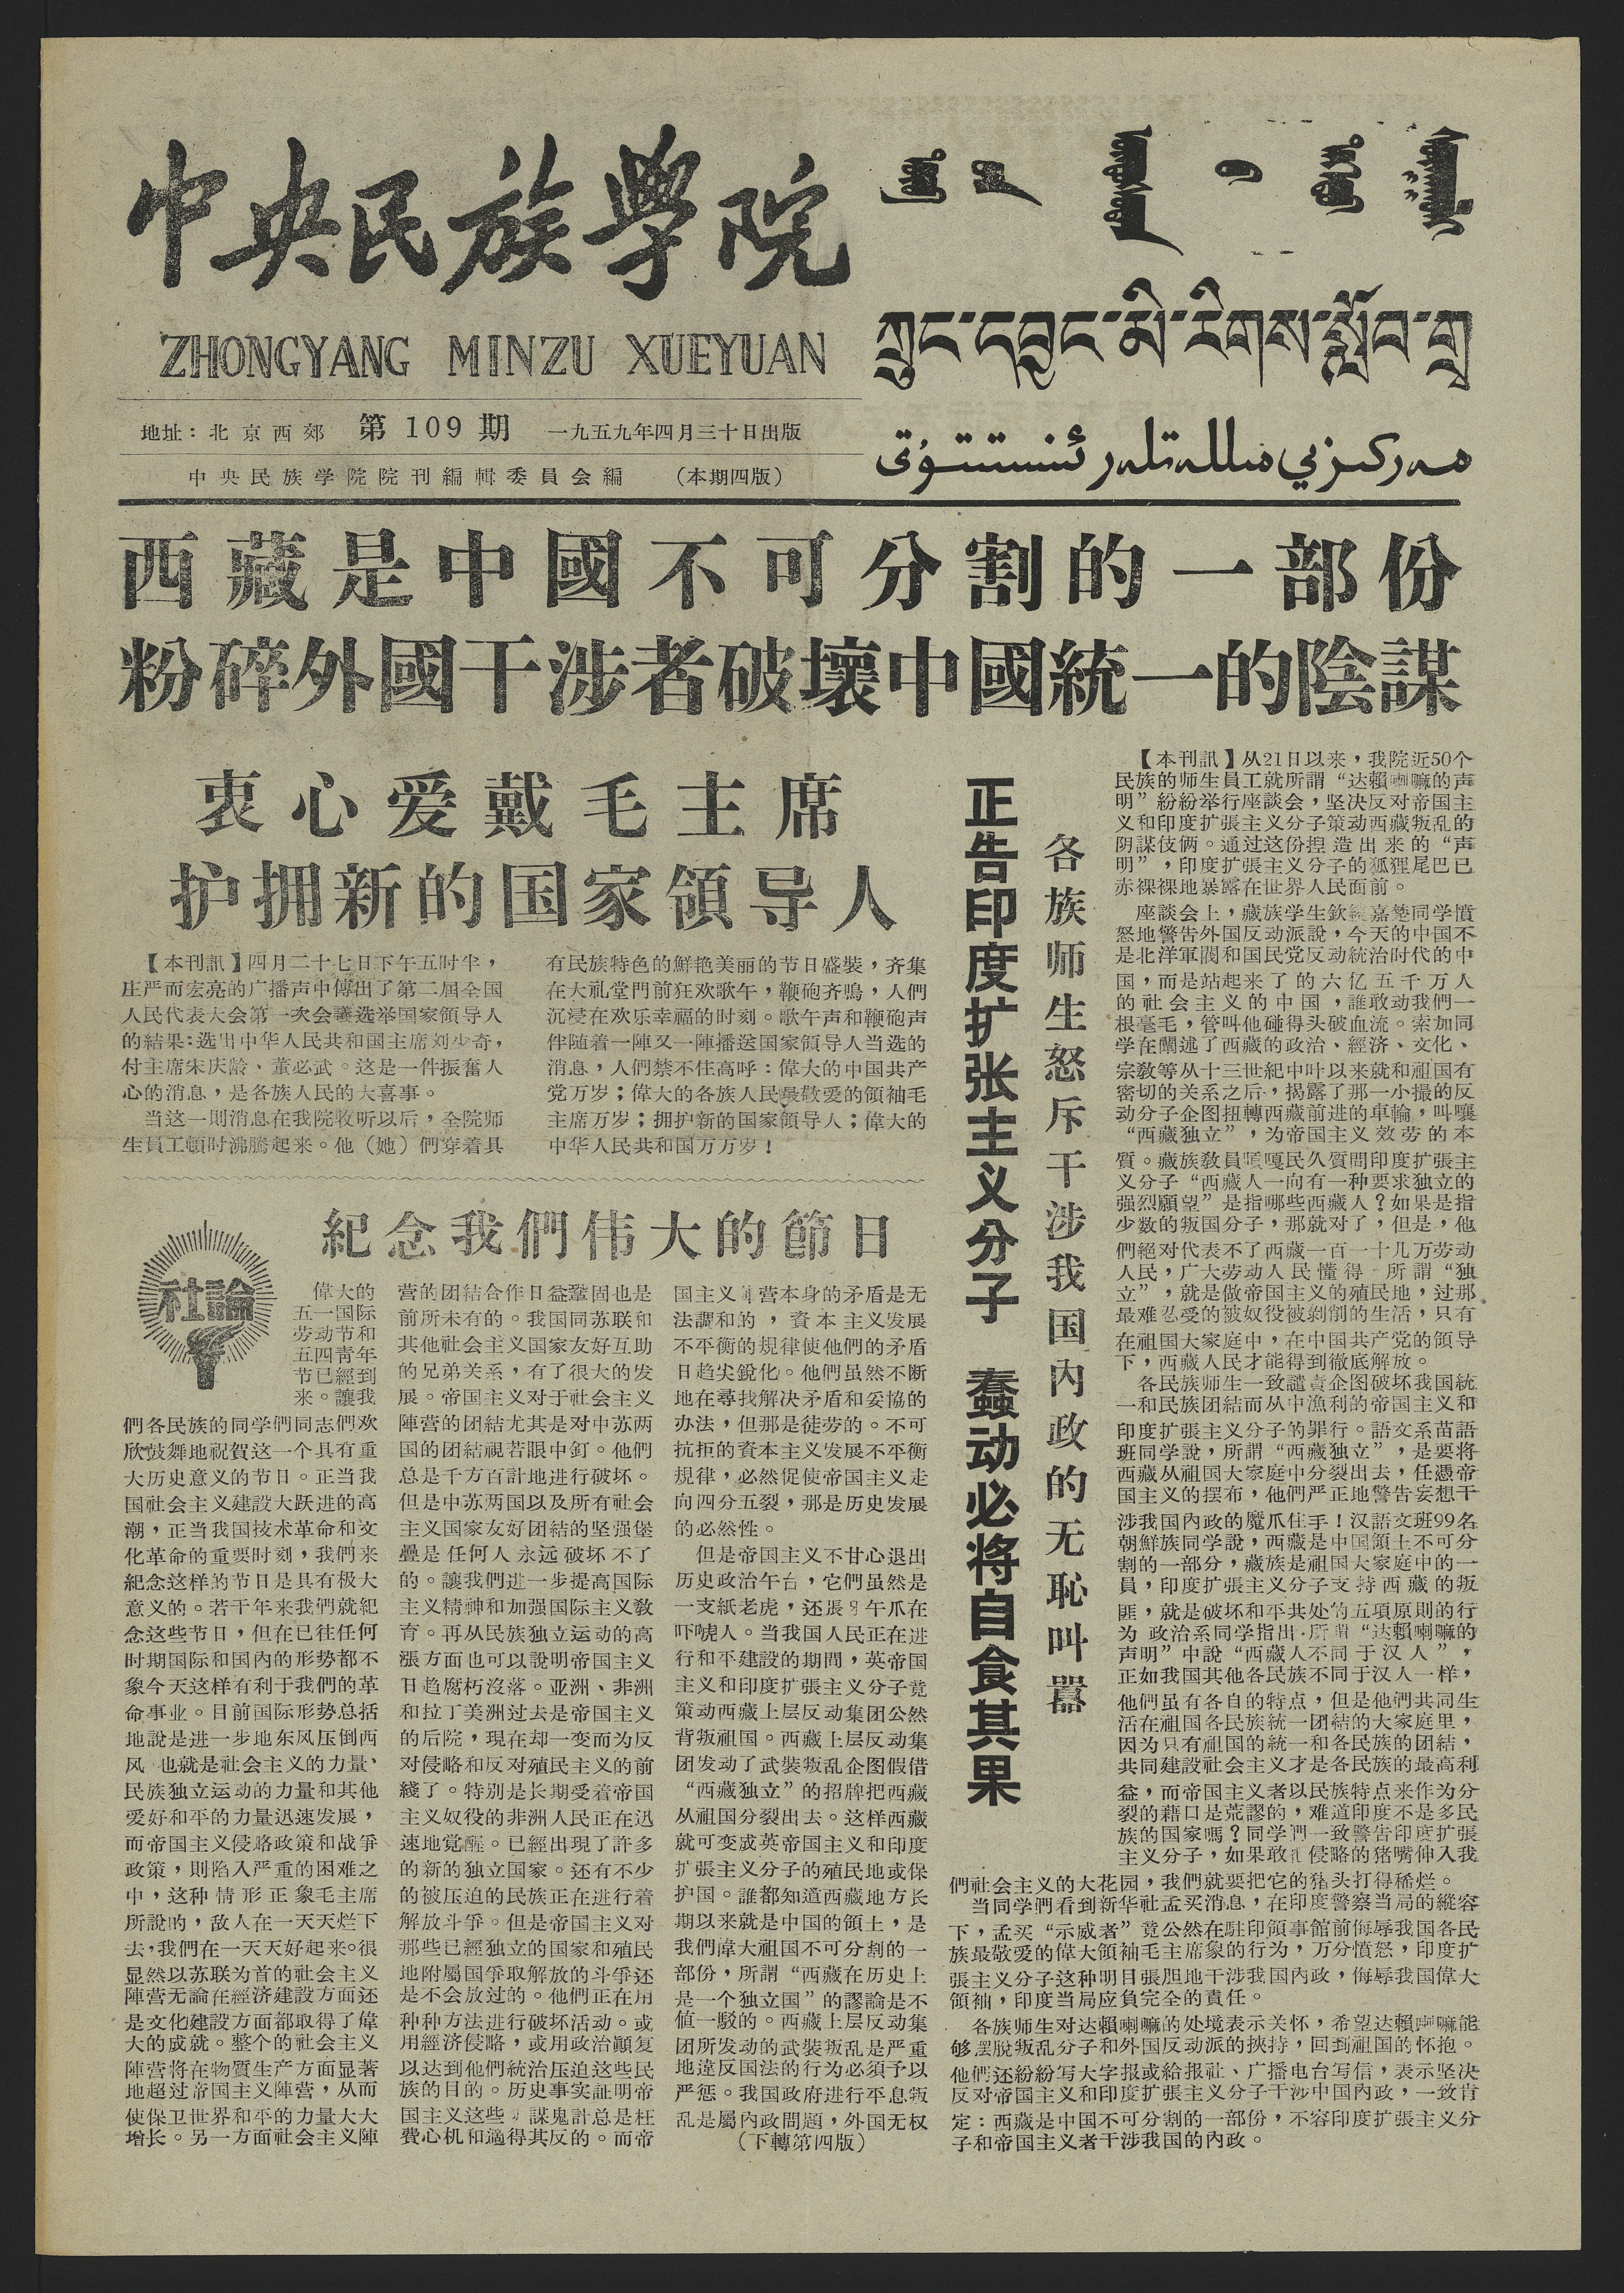中央民族學院
ZHONGYANG MINZU XUEYUAN
ᠲᠥᠪ ᠦᠨ ᠦᠨᠳᠦᠰᠦᠲᠡᠨ ᠦ ᠳᠡᠭᠡᠳᠦ ᠰᠤᠷᠭᠠᠭᠤᠯᠢ
ཀྲུང་དབྱང་མི་རིགས་སློབ་གྲྭ
مەركىزىي مىللەتلەر ئىنستىتۇتى
地址：北 京 西 郊 第 109 期 一九五九年四月三十日出版
中央民族学院院刊編輯委員會編 （本期四版）
西藏是中國不可分割的一部份
粉碎外國干涉者破壞中國統一的陰謀
衷心爱戴毛主席
护拥新的国家領导人
【本刊訊】四月二十七日下午五时半，
庄严而宏亮的广播声中傳出了第二屆全国
人民代表大会第一次会議选举国家領导人
的結果：选出中华人民共和国主席刘少奇，
付主席宋庆龄、董必武。这是一件振奮人
心的消息，是各族人民的大喜事。
当这一則消息在我院收听以后，全员师
生員工頓沸騰起来。他（她）們穿着具
有民族特色的鮮艳美丽的节日盛裝，齐集
在大礼堂門前狂欢歌午，鞭砲齐鳴，人們
沉浸在欢乐幸福的时刻。歌午声和鞭砲声
伴随着一陣又一陣播送国家領导人当选的
消息，人們禁不住高呼：偉大的中国共产
党万岁；偉大的各族人民最敬爱的領袖毛
主席万岁；拥护新的国家領导人；偉大的
中华人民共和国万万岁！
社論
紀念我們伟大的節日
偉大的
五一国际
劳动节和
五四靑年
节已經到
来。讓我
們各民族的同学們同志們欢
欣鼓舞地祝賀这一个具有重
大历史意义的节日。正当我
国社会主义建設大跃进的高
潮，正当我国技术革命和文
化革命的重要时刻，我們来
紀念这样的节日是具有极大
意义的。若干年来我們就紀
念这些节日，但在已往任何
时期国际和国内的形势都不
象今天这样有利于我們的革
命事业。目前国际形势总括
地說是进一步地东风压倒西
风，也就是社会主义的力量、
民族独立运动的力量和其他
爱好和平的力量迅速发展，
而帝国主义侵略政策和战爭
政策，則陷入严重的困难之
中，这种情形正象毛主席
所說的，敌人在一天天烂下
去，我們在一天天好起来。很
显然以苏联为首的社会主义
陣营无論在經济建設方面还
是文化建設方面都取得了偉
大的成就。整个的社会主义
陣营将在物質生产方面显著
地超过帝国主义陣营，从而
使保卫世界和平的力量大大
增长。另一方面社会主义陣
营的团結合作日益鞏固也是
前所未有的。我国同苏联和
其他社会主义国家友好互助
的兄弟关系，有了很大的发
展。帝国主义对于社会主义
陣营的团結尤其是对中苏两
国的团結視若眼中釘。他們
总是千方百計地进行破坏。
但是中苏两国以及所有社会
主义国家友好团結的坚强堡
疊是任何人永远破坏不了
的。讓我們进一步提高国际
主义精神和加强国际主义敎
育。再从民族独立运动的高
漲方面也可以說明帝国主义
日趋腐朽沒落。亚洲、非洲
和拉丁美洲过去是帝国主义
的后院，現在却一变而为反
对侵略和反对殖民主义的前
綫了。特别是长期受着帝国
主义奴役的非洲人民正在迅
速地覚醒。已經出現了許多
的新的独立国家。还有不少
的被压迫的民族正在进行着
解放斗爭。但是帝国主义对
那些已經独立的国家和殖民
地附屬国爭取解放的斗爭还
是不会放过的。他們正在用
种种方法进行破坏活动。或
用經济侵略，或用政治顚复
以达到他們統治压迫这些民
族的目的。历史事实証明帝
国主义这些阴謀鬼計总是枉
费心机和適得其反的。而帝
国主义陣营本身的矛盾是无
法調和的，資本主义发展
不平和的規律使他們的矛盾
日趋尖銳化。他們虽然不断
地在尋找解决矛盾和妥協的
办法，但那是徒劳地。不可
抗拒的資本主义发展不平衡
規律，必然促使帝国主义走
向四分五裂，那是历史发展
的必然性。
但是帝国主义不甘心退出
历史政治午台，它們虽然是
一支紙老虎，还張牙午爪在
吓唬人。当我国人民正在进
行和平建設的期間，英帝国
主义和印度扩張主义分子竟
策动西藏上层反动集团公然
被判祖国。西藏上层反动集
团发动了武装叛乱企图假借
“西藏独立”的招牌把西藏
从祖国分裂出去。这样西藏
就可变成英帝国主义和印度
扩張主义分子的殖民地或保
护国。誰都知道西藏地方长
期以来就是中国的領土，是
我們偉大祖国不可分割的一
部分，所謂“西藏在历史上
十一个独立国”的謬論是不
值一駁的。西藏上层反动集
团所发动的武装叛乱是严重
地違反国法的行为必須予以
严惩。我国政府进行平息叛
乱是屬內政問題，外国无权
（下轉第四版）
正告印度扩张主义分子 蠢动必将自食其果
各族师生怒斥干涉我国内政的无恥叫囂
【本刊訊】从21日以来，我院近50各
民族的师生員工就所謂“达賴喇嘛的声
明”紛紛举行座談会，坚决反对帝国主
义和印度扩張主义分子策动西藏叛乱的
阴謀伎俩。通过这份捏造出来的“声
明”，印度扩張主义分子的狐狸尾巴已
赤裸裸地暴露在世界人民面前。
座談会上，藏族学生欽繞嘉楚同学憤
怒地警告外国反动派說，今天的中国不
是北洋軍閥和国民党反动統治时代的中
国，而是站起来了的六亿五千万人
的社会主义的中国，誰敢动我們一
根毫毛，管叫他碰得头破血流。索加同
学在闡述了西藏的政治、經济、文化、
宗敎等从十三世紀中叶以来就和祖国有
密切的关系之后，揭露了那一小撮的反
动分子企图扭轉西藏前进的車輪，叫嚷
“西藏独立”，为帝国主义效劳的本
質。藏族敎員嗊嘎民久質問印度扩張主
义分子“西藏人一向有一种要求独立的
强烈願望”是指哪些西藏人？如果是指
少数的叛国分子，那就对了，但是，他
們絕对代表不了西藏一百一十几万劳动
人民，广大劳动人民懂得，所謂“独
立”，就是做帝国主义的殖民地，过那
最难忍受的被奴役被剝削的生活，只有
在祖国大家庭中，在中国共产党的領导
下，西藏人民才能得到徹底解放。
各民族师生一致譴責企图破坏我国統
一和民族团結而从中漁利的帝国主义和
印度扩張主义分子的罪行。語文系苗語
班同学說，所謂“西藏独立”，是要将
西藏从祖国大家庭中分裂出去，任憑帝
国主义的摆布，他們严正地警告妄想干
涉我国内政的魔爪住手！汉語文班99名
朝鮮族同学說，西藏是中国領土不可分
割的一部分，藏族是祖国大家庭中的一
員，印度扩張主义分子支持西藏的叛
匪，就是破坏和平共处的五項原則的行
为 政治系同学指出，所謂“达賴喇嘛的
声明”中說“西藏人不同于汉人”，
正如我国其他各民族不同于汉人一样，
他們虽有各自的特点，但是他們共同生
活在祖国各民族統一团結的大家庭里，
因为只有祖国的統一和各民族的团結，
共同建設社会主义才是各民族的最高利
益，而帝国主义者以民族特点来作为分
裂的藉口是荒謬的，难道印度不是多民
族的国家嗎？同学們一致警告印度扩張
主义分子，如果敢把侵略的猪嘴伸入我
們社会主义的大花园，我們就要把它的猪头打得稀烂。
当同学們看到新华社孟买消息，在印度警察当局的縱容
下，孟买“示威者”竟公然在駐印領事館前侮辱我国各民
族最敬爱的偉大領袖毛主席象的行为，万分憤怒，印度扩
張主义分子这种明目張胆地干涉我国内政，侮辱我国偉大
領袖，印度当局应負完全的責任。
各族师生对达賴喇嘛的处境表示关怀，希望达賴喇嘛能
够摆脫叛乱分子和外国反动派的挾持，回到祖国的怀抱。
他們还紛紛写大字报或給报社、广播电台写信，表示坚决
反对帝国主义和印度扩張主义分子干涉中国内政，一致肯
定：西藏是中国不可分割的一部分，不容印度扩張主义分
子和帝国主义者干涉我国的内政。
